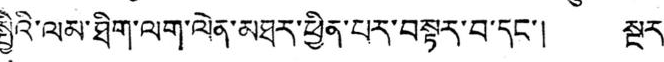སྤྱིའི་ལམ་ཐིག་ལག་ལེན་མཐར་ཕྱིན་པར་བསྟར་བ་དང་། སྔར་
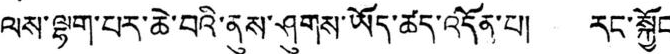ལས་ལྷག་པར་ཆེ་བའི་ནུས་ཤུགས་ཡོད་ཚད་འདོན་པ། རང་སྐྱོང་
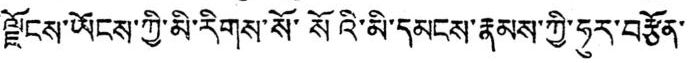ལྗོངས་ཡོངས་ཀྱི་མི་རིགས་སོ་སོའི་མི་དམངས་རྣམས་ཀྱི་ཧུར་བརྩོན་
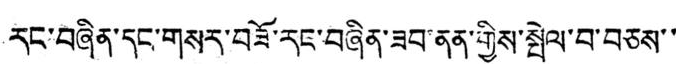རང་བཞིན་དང་གསར་བཟོ་རང་བཞིན་ཟབ་ནན་གྱིས་སྤེལ་བ་བཅས་་
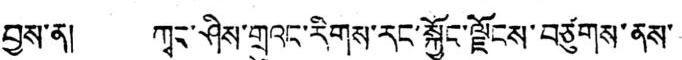བྱས་ན། ཀྭང་ཤིས་གྲུའང་རིགས་རང་སྐྱོང་ལྗོངས་བཙུགས་ནས་
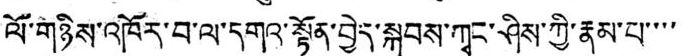ལོ་གཉིས་འཁོར་བ་ལ་དགའ་སྟོན་བྱེད་སྐབས་ཀྭང་ཤིས་ཀྱི་རྣམ་པ་་་་
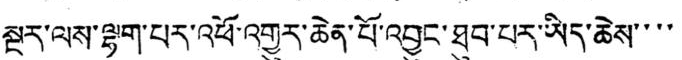སྔར་ལས་ལྷག་པར་འཕོ་འགྱུར་ཆེན་པོ་འབྱུང་ཐུབ་པར་ཡིད་ཆེས་་་་
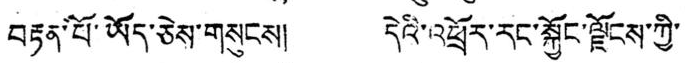བརྟན་པོ་ཡོད་ཅེས་གསུངས། དེའི་འཕྲོར་རང་སྐྱོང་ལྗོངས་ཀྱི་
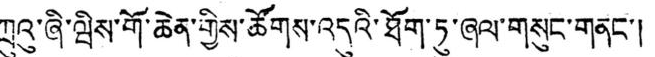ཀྲུའུ་ཞི་ཝིས་གོ་ཆེན་གྱིས་ཚོགས་འདུའི་ཐོག་ཏུ་ཞལ་གསུང་གནང་།
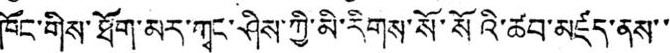ཁོང་གིས་ཐོག་མར་ཀྭང་ཤིས་ཀྱི་མི་རིགས་སོ་སོའི་ཚབ་མཛད་ནས་་
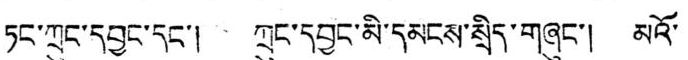ཏང་ཀྲུང་དབྱང་དང་། ཀྲུང་དབྱང་མི་དམངས་སྲིད་གཞུང་། མའོ་
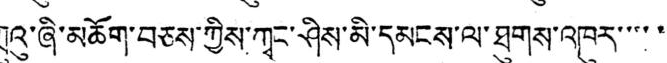ཀྲུའུ་ཞི་མཆོག་བཅས་ཀྱིས་ཀྭང་ཤིས་མི་དམངས་ལ་ཐུགས་འཁུར་་་་་
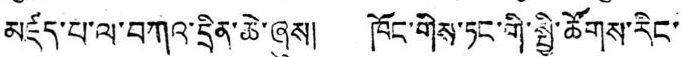མཛད་པ་ལ་བཀའ་དྲིན་ཆེ་ཞུས། ཁོང་གིས་ཏང་གི་སྤྱི་ཚོགས་རིང་
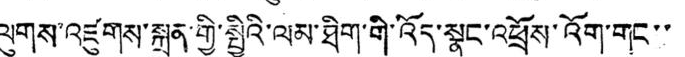ལུགས་འཛུགས་སྐྲུན་ཀྱི་སྤྱིའི་ལམ་ཐིག་གི་འོད་སྣང་འཕྲོས་འོག་གང་་
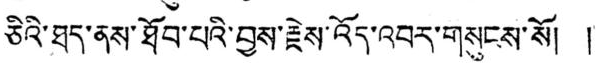ཅིའི་ཐད་ནས་ཐོབ་པའི་བྱས་རྗེས་འོད་འབར་གསུངས་སོ། །
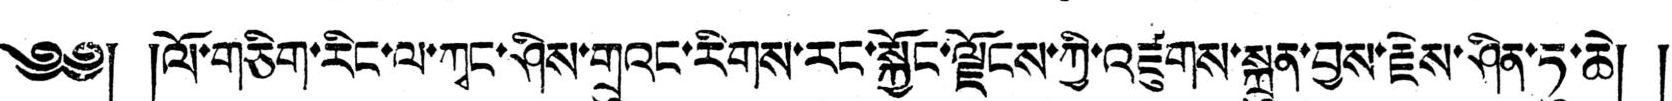༄༅། །ལོ་གཅིག་རིང་ལ་ཀྭང་ཤིས་གྲུའང་རིགས་རང་སྐྱོང་ལྗོངས་ཀྱི་འཛུགས་སྐྲུན་བྱས་རྗེས་ཤིན་ཏུ་ཆེ། །
